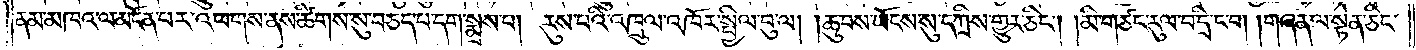ནམ་མཁའ་ལ་མངོན་པར་འཕགས་ནས་ཚིགས་སུ་བཅད་པ་དགྲ་སྨྲས་པ། རུས་པའི་འཁྲུལ་འཁོར་སྤྱིལ་བུ་ལ། །ཆུ་བས་ཡོངས་སུ་དཀྲིས་གྱུར་ཅིང༌། །མི་གཙང་རུལ་བ་དྲི་ང་བ། །གཞན་ལ་སྟེན་ཅིང་
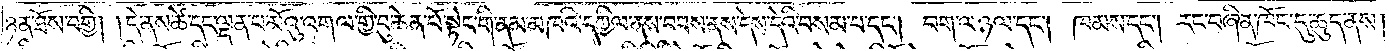ཉན་ཐོས་བགྱི། །དེ་ནས་ཚེ་དང་ལྡན་པ་མོའུ་འགལ་གྱི་བུ་ཆེན་པོ་སྟེང་གི་ནམ་མཁའི་དཀྱིལ་ནས་བབས་ནས་དེས་དེའི་བསམ་པ་དང༌། བག་ལ་ཉལ་དང༌། ཁམས་དང༌། རང་བཞིན་ཁོང་དུ་ཆུད་ནས།
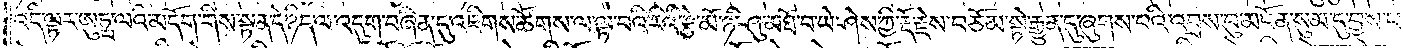འདི་ལྟར་ཨུཏྤ་ལའི་མདོག་གིས་སྟན་དེ་ཉིད་ལ་འདུག་བཞིན་དུ་འཇིགས་ཚོགས་ལ་ལྟ་བའི་རིའི་རྩེ་མོ་ཉི་ཤུ་མཐོ་བ་ཡེ་ཤེས་ཀྱི་རྡོ་རྗེས་བཅོམ་སྟེ་རྒྱུན་དུ་ཞུགས་པའི་འབྲས་བུ་མངོན་སུམ་དུ་བྱས་པ་
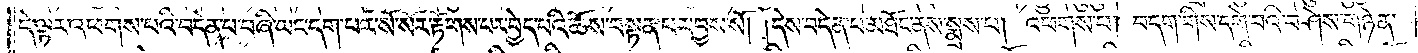དེ་ལྟར་འཕགས་པའི་བདེན་པ་བཞི་ཡང་དག་པར་སོ་སོར་རྟོགས་པར་བྱེད་པའི་ཆོས་བསྟན་པར་བྱས་སོ། །དེས་བདེན་པ་མཐོང་ནས་སྨྲས་པ། འཕགས་པ། བདག་གིས་དགེ་བའི་བཤེས་གཉེན་
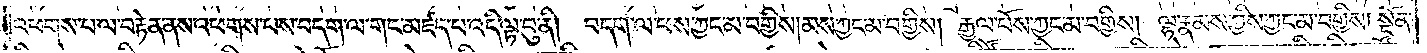འཕགས་པ་ལ་བརྟེན་ནས་འཕགས་པས་བདག་ལ་གང་མཛད་པ་འདི་ལྟ་བུ་ནི། བདག་ལ་ཕས་ཀྱང་མ་བགྱིས། མས་ཀྱང་མ་བགྱིས། རྒྱལ་པོས་ཀྱང་མ་བགྱིས། ལྷ་རྣམས་ཀྱིས་ཀྱང་མ་བགྱིས། སྔོན་
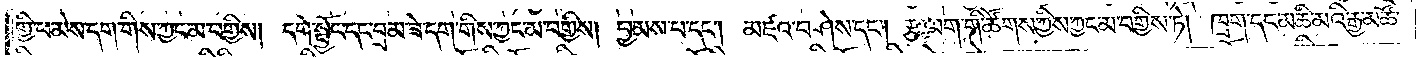གྱི་ཕ་མེས་དག་གིས་ཀྱང་མ་བགྱིས། དགེ་སྦྱོང་དང་བྲམ་ཟེ་དག་གིས་ཀྱང་མ་བགྱིས། བྱམས་པ་དང༌། མཛའ་བཤེས་དང༌། རྩ་ལག་གི་ཚོགས་ཀྱིས་ཀྱང་མ་བགྱིས་ཏེ། ཁྲག་དང་མཆི་མའི་རྒྱ་མཚོ་
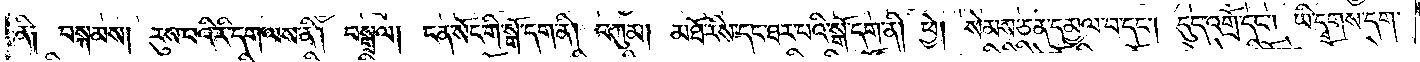ནི། བསྐམས། རུས་པའི་རི་དག་ལས་ནི། བསྒྲལ། ངན་སོང་གི་སྒོ་དག་ནི། བཀུམ། མཐོ་རིས་དང་ཐར་པའི་སྒོ་དག་ནི། ཕྱེ། སེམས་ཅན་དམྱལ་བ་དང༌། དུད་འགྲོ་དང༌། ཡི་དྭགས་དག་
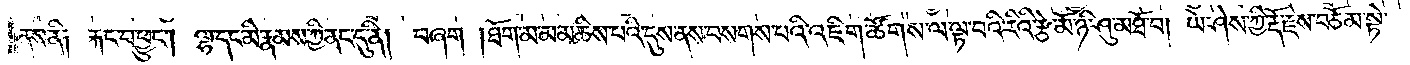ནས་ནི། རྐང་པ་ཕྱུང༌། ལྷ་དང་མི་རྣམས་ཀྱི་ནང་དུ་ནི། བཞག །ཐོག་མ་མ་མཆིས་པའི་དུས་ནས་བསགས་པའི་འཇིག་ཚོགས་ལ་ལྟ་བའི་རིའི་རྩེ་མོ་ཉི་ཤུ་མཐོ་བ། ཡེ་ཤེས་ཀྱི་རྡོ་རྗེས་བཅོམ་སྟེ་
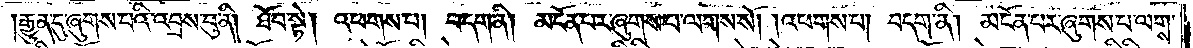།རྒྱུན་དུ་ཞུགས་པའི་འབྲས་བུ་ནི། ཐོབ་སྟེ། འཕགས་པ། བདག་ནི། མངོན་པར་ཞུགས་པ་ལགས་སོ། །འཕགས་པ། བདག་ནི། མངོན་པར་ཞུགས་པ་ལགས་
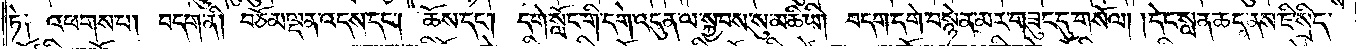ཏེ༑ འཕགས་པ། བདག་ནི། བཅོམ་ལྡན་འདས་དང༌། ཆོས་དང༌། དགེ་སློང་གི་དགེ་འདུན་ལ་སྐྱབས་སུ་མཆི་ཡི། བདག་དགེ་བསྙེན་མར་གཟུང་དུ་གསོལ། །དེང་སླན་ཆད་ནས་ཇི་སྲིད་
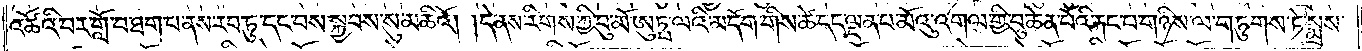འཚོའི་བར་གློ་བ་ཐག་པ་ནས་རབ་ཏུ་དང་བས་སྐྱབས་སུ་མཆིའོ། །དེ་ནས་རིགས་ཀྱི་བུ་མོ་ཨུཏྤ་ལའི་མདོག་གིས་ཚེ་དང་ལྡན་པ་མོའུ་འགལ་གྱི་བུ་ཆེན་པོའི་རྐང་པ་གཉིས་ལ་གཏུགས་ཏེ་སྨྲས་
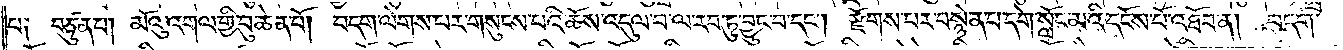པ༑ བཙུན་པ། མོའུ་འགལ་གྱི་བུ་ཆེན་པོ། བདག་ལེགས་པར་གསུངས་པའི་ཆོས་འདུལ་བ་ལ་རབ་ཏུ་བྱུང་བ་དང༌། རྫོགས་པར་བསྙེན་པ་དགེ་སློང་མའི་དངོས་པོ་འཐོབ་ན། བདག་
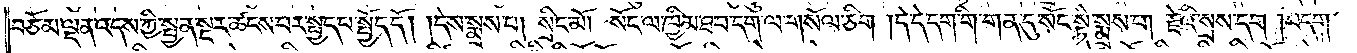བཅོམ་ལྡན་འདས་ཀྱི་སྤྱན་སྔར་ཚངས་པར་སྤྱད་པ་སྤྱོད་དོ། །དེས་སྨྲས་པ། སྲིང་མོ། སོང་ལ་ཁྱིམ་ཐབ་དག་ལ་གསོལ་ཅིག །དེ་དེ་དག་གིས་གན་དུ་སོང་སྟེ་སྨྲས་པ། རྗེའི་སྲས་དག །བདག་
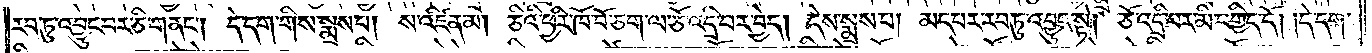རབ་ཏུ་འབྱུང་བར་ཅི་གནང༌། དེ་དག་གིས་སྨྲས་པ། ས་འཛིན་མ། ཅིའི་ཕྱིར་ཁོ་བོ་ཅག་ལ་ཅོ་འདྲི་བར་བྱེད། དེས་སྨྲས་པ། མད་པར་རབ་ཏུ་འབྱུང་སྟེ། ཅོ་འདྲི་བར་མི་བགྱིད་དོ། །དེ་དག་
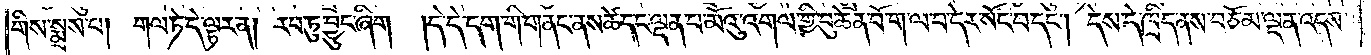གིས་སྨྲས་པ། གལ་ཏེ་དེ་ལྟར་ན། རབ་ཏུ་བྱུང་ཞིག །དེ་དེ་དག་གི་གནང་ནས་ཚེ་དང་ལྡན་པ་མོའུ་འགལ་གྱི་བུ་ཆེན་པོ་ག་ལ་བ་དེར་སོང་བ་དང༌། དེས་དེ་ཁྲིད་ནས་བཅོམ་ལྡན་འདས་
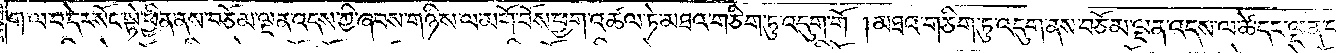ག་ལ་བ་དེར་སོང་སྟེ་ཕྱིན་ནས་བཅོམ་ལྡན་འདས་ཀྱི་ཞབས་གཉིས་ལ་མགོ་བོས་ཕྱག་འཚལ་ཏེ་མཐའ་གཅིག་ཏུ་འདུག་གོ །མཐའ་གཅིག་ཏུ་འདུག་ནས་བཅོམ་ལྡན་འདས་ལ་ཚེ་དང་ལྡན་པ་
